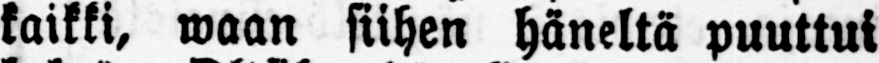kaikki, waan siihen häneltä puuttui
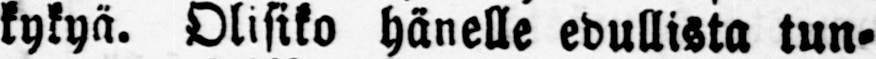kykyä. Olisiko hänelle edullista tun-
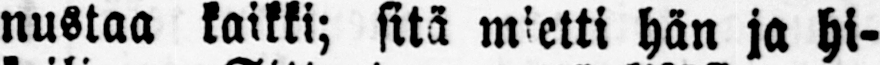nustaa kaikki; sitä mietti hän ja hi-
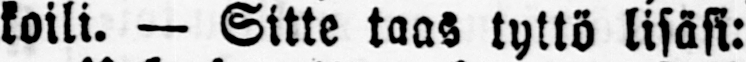koili. — Sitte taas tyttö lisäsi:
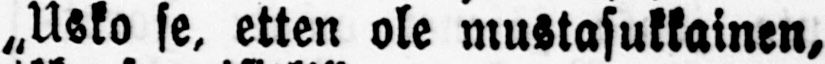„Usko se, etten ole mustasukkainen,
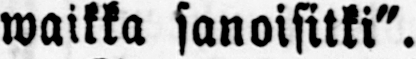waikka sanoisitki".
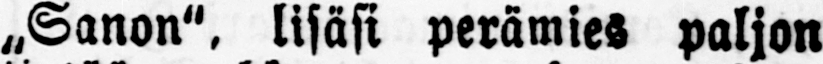„Sanon", lisäsi perämies paljon
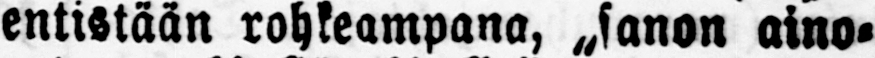entistään rohkeampana, „sanon aino-
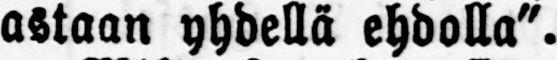astaan yhdellä ehdolla".
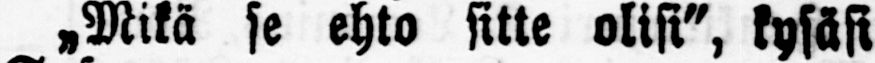„Mikä se ehto sitte olisi", kysäsi
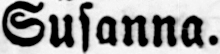Susanna.
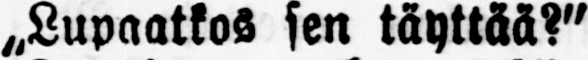„Lupaatkos sen täyttää?"
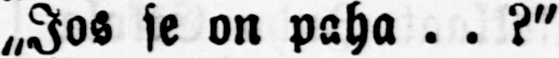„Jos se on paha . . ?"
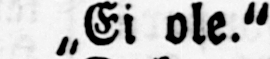„Ei ole."
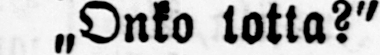„Onko totta?"
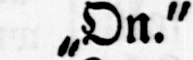„On."
